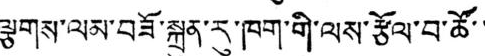ལྕགས་ལམ་བཟོ་སྐྲུན་རུ་ཁག་གི་ལས་རྩོལ་བ་ཚོ་་
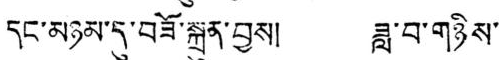དང་མཉམ་དུ་བཟོ་སྐྲུན་བྱས། ཟླ་བ་གཉིས་
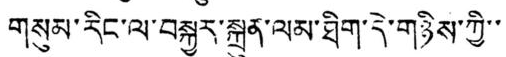གསུམ་རིང་ལ་བསྐྱར་སྐྲུན་ལམ་ཐིག་དེ་གཉིས་ཀྱི་་
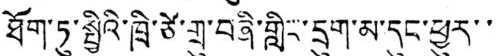ཐོག་ཏུ་སྤྱིའི་ཁྲི་ཙེ་གྲུ་བཞི་གླིང་དྲུག་མ་དུང་ཕྱུར་་
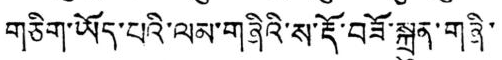གཅིག་ཡོད་པའི་ལམ་གཞིའི་ས་རྡོ་བཟོ་སྐྲུན་གཞི་
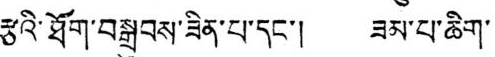རྩའི་ཐོག་བསྒྲུབས་ཟིན་པ་དང་། ཟམ་པ་ཆིག་
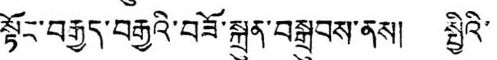སྟོང་བརྒྱད་བརྒྱའི་བཟོ་སྐྲུན་བསྒྲུབས་ནས། སྤྱིའི་
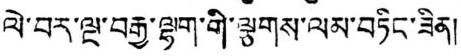ལེ་བར་ལྔ་བརྒྱ་ལྷག་གི་ལྕགས་ལམ་བཏིང་ཟིན།
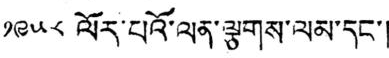༡༩༥༨ ལོར་པའོ་ལན་ལྕགས་ལམ་དང་།
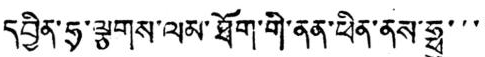དབྱིན་ཧྲ་ལྕགས་ལམ་ཐོག་གི་ནན་ཕིན་ནས་ཧྥུ་་་་
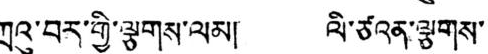ཀྲའུ་བར་གྱི་ལྕགས་ལམ། ལི་ཙའན་ལྕགས་
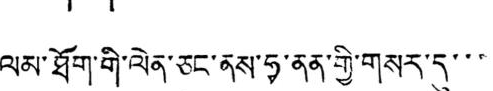ལམ་ཐོག་གི་ལེན་ཅང་ནས་ཧྭ་ནན་གྱི་གསར་དུ་་་
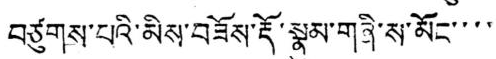བཙུགས་པའི་མིས་བཟོས་རྡོ་སྣུམ་གཞི་ས་མོང་་་་
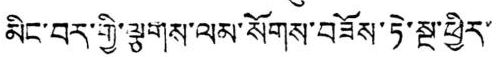མིང་བར་གྱི་ལྕགས་ལམ་སོགས་བཟོས་ཏེ་སྔ་ཕྱིར་
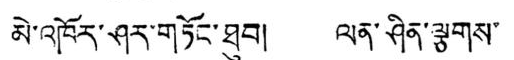མེ་འཁོར་ཤར་གཏོང་ཐུབ། ལན་ཤིན་ལྕགས་
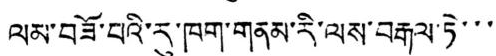ལམ་བཟོ་པའི་རུ་ཁག་གནམ་རི་ལས་བརྒལ་ཏེ་་་
